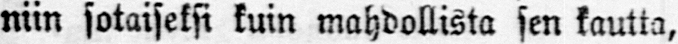niin sotaiseksi kuin mahdollista sen kautta,
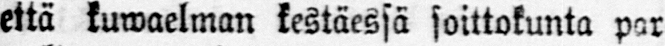että kuwaelman kestäessä soittokunta par-
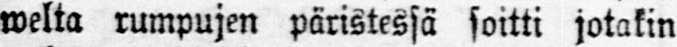welta rumpujen päristessä soitti jotakin
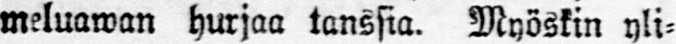meluawan hurjaa tanssia. Myöskin yli-
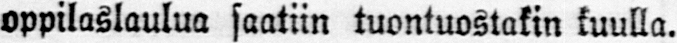oppilaslaulua saatiin tuontuostakin kuulla.
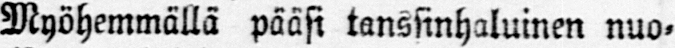Myöhemmällä pääsi tanssinhaluinen nuo-
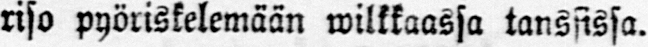riso pyöriskelemään wilkkaassa tanssissa.
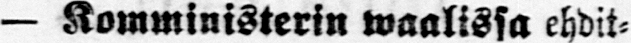— Komministerin waalissa ehdit-
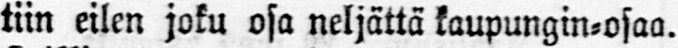tiin eilen joku osa neljättä kaupungin-osaa.
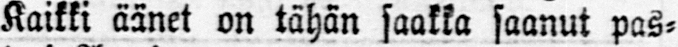Kaikki äänet on tähän saakka saanut pas-
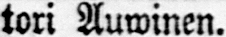tori Auwinen.
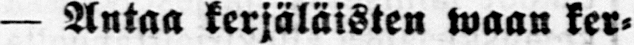— Antaa kerjäläisten waan ker-
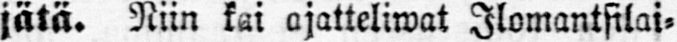jätä. Niin kai ajatteliwat Ilomantsilai-
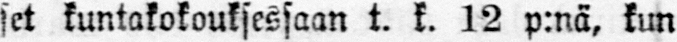set kuntakokouksessaan t. k. 12 p:nä, kun
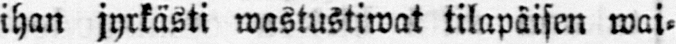ihan jyrkästi wastustiwat tilapäisen wai-
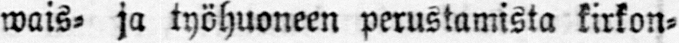wais- ja työhuoneen perustamista kirkon-
